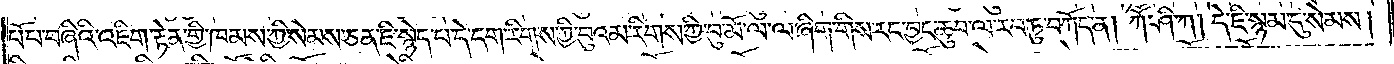པོ་པ་བཞིའི་འཇིག་རྟེན་གྱི་ཁམས་ཀྱི་སེམས་ཅན་ཇི་སྙེད་པ་དེ་དག་རིགས་ཀྱི་བུའམ་རིགས་ཀྱི་བུ་མོ་ལ་ལ་ཞིག་གིས་རང་བྱང་ཆུབ་ལ་རབ་ཏུ་བཀོད་ན། ཀཽ་ཤི་ཀ། དེ་ཇི་སྙམ་དུ་སེམས།
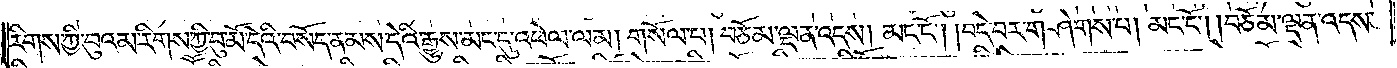རིགས་ཀྱི་བུའམ་རིགས་ཀྱི་བུ་མོ་དེའི་བསོད་ནམས་དེའི་རྒྱུས་མང་དུ་འཕེལ་ལམ། གསོལ་པ། བཅོམ་ལྡན་འདས། མང་ངོ༌། །བདེ་བར་གཤེགས་པ། མང་ངོ༌། །བཅོམ་ལྡན་འདས་
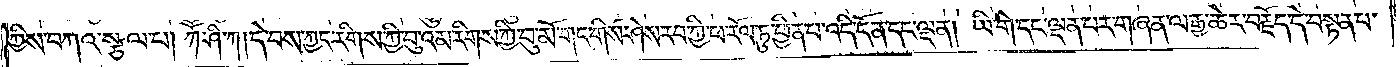ཀྱིས་བཀའ་སྩལ་པ། ཀཽ་ཤི་ཀ། དེ་བས་ཀྱང་རིགས་ཀྱི་བུའམ་རིགས་ཀྱི་བུ་མོ་གང་གིས་ཤེས་རབ་ཀྱི་ཕ་རོལ་ཏུ་ཕྱིན་པ་འདི་དོན་དང་ལྡན། ཡི་གེ་དང་ལྡན་པར་གཞན་ལ་རྒྱ་ཆེར་བརྗོད་དེ་བསྟན་པ་
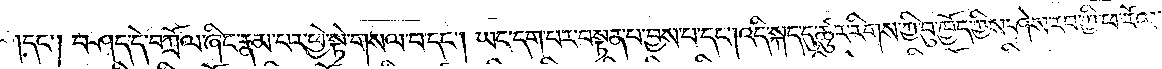དང༌། བཤད་དེ་བཀྲོལ་ཞིང་རྣམ་པར་ཕྱེ་སྟེ་གསལ་བ་དང༌། །ཡང་དག་པར་བསྟན་པ་བྱས་པ་དང༌། འདི་སྐད་དུ་ཚུར་རིགས་ཀྱི་བུ་ཁྱོད་ཀྱིས་ཤེས་རབ་ཀྱི་ཕ་རོལ་
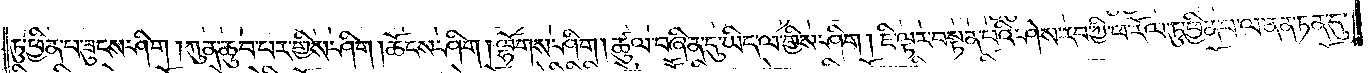ཏུ་ཕྱིན་པ་ཟུངས་ཤིག །ཀུན་ཆུབ་པར་གྱིས་ཤིག །ཆོངས་ཤིག། ལྷོགས་ཤིག །ཚུལ་བཞིན་དུ་ཡིད་ལ་གྱིས་ཤིག །ཇི་ལྟར་བསྟན་པའི་ཤེས་རབ་ཀྱི་ཕ་རོལ་ཏུ་ཕྱིན་པ་ལ་ནན་ཏན་དུ་
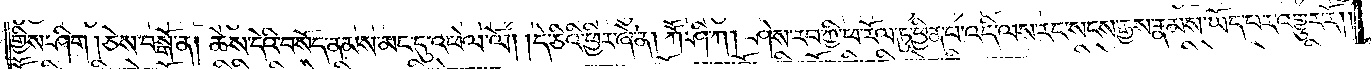གྱིས་ཤིག། ཅེས་བསྒོ་ན། ཆེས་དེའི་བསོད་ནམས་མང་དུ་འཕེལ་ལོ། །དེ་ཅིའི་ཕྱིར་ཞེ་ན། ཀཽ་ཤི་ཀ། ཤེས་རབ་ཀྱི་ཕ་རོལ་ཏུ་ཕྱིན་པ་འདི་ལས་རང་སངས་རྒྱས་རྣམས་ཡོད་པར་འགྱུར་རོ། །
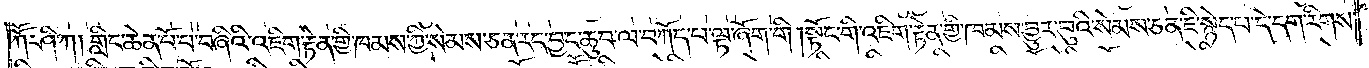ཀཽ་ཤི་ཀ། གླིང་ཆེན་པོ་པ་བཞིའི་འཇིག་རྟེན་གྱི་ཁམས་ཀྱི་སེམས་ཅན་རང་བྱང་ཆུབ་ལ་བཀོད་པ་ལྟ་ཞོག་གི །སྟོང་གི་འཇིག་རྟེན་གྱི་ཁམས་བྱུར་བུའི་སེམས་ཅན་ཇི་སྙེད་པ་དེ་དག་རིགས་
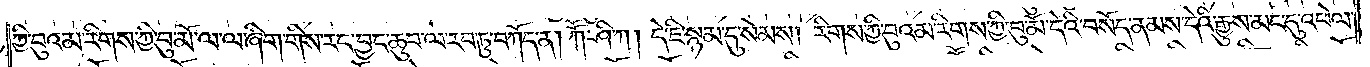ཀྱི་བུའམ་རིགས་ཀྱི་བུ་མོ་ལ་ལ་ཞིག་གིས་རང་བྱང་ཆུབ་ལ་རབ་ཏུ་བཀོད་ན། ཀཽ་ཤི་ཀ། དེ་ཇི་སྙམ་དུ་སེམས། རིགས་ཀྱི་བུའམ་རིགས་ཀྱི་བུ་མོ་དེའི་བསོད་ནམས་དེའི་རྒྱུས་མང་དུ་འཕེལ་
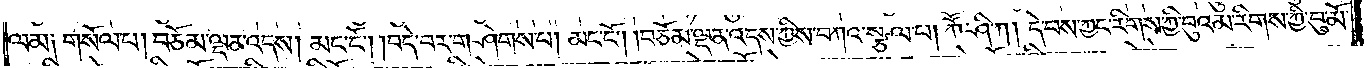ལམ༑ གསོལ་པ། བཅོམ་ལྡན་འདས། མང་ངོ༌། །བདེ་བར་གཤེགས་པ། མང་ངོ༌། །བཅོམ་ལྡན་འདས་ཀྱིས་བཀའ་སྩལ་པ། ཀཽ་ཤི་ཀ། དེ་བས་ཀྱང་རིགས་ཀྱི་བུའམ་རིགས་ཀྱི་བུ་མོ་
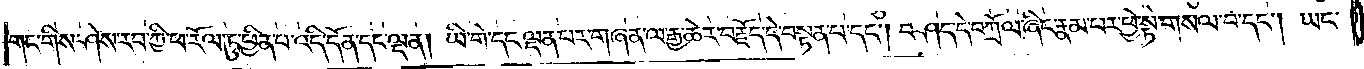གང་གིས་ཤེས་རབ་ཀྱི་ཕ་རོལ་ཏུ་ཕྱིན་པ་འདི་དོན་དང་ལྡན། ཡི་གེ་དང་ལྡན་པར་གཞན་ལ་རྒྱ་ཆེར་བརྗོད་དེ་བསྟན་པ་དང༌། བཤད་དེ་བཀྲོལ་ཞིང་རྣམ་པར་ཕྱེ་སྟེ་གསལ་བ་དང༌། ཡང་
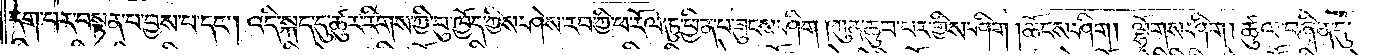དག་པར་བསྟན་པ་བྱས་པ་དང༌། འདི་སྐད་དུ་ཚུར་རིགས་ཀྱི་བུ་ཁྱོད་ཀྱིས་ཤེས་རབ་ཀྱི་ཕ་རོལ་ཏུ་ཕྱིན་པ་ཟུངས་ཤིག །ཀུན་ཆུབ་པར་གྱིས་ཤིག །ཆོངས་ཤིག། ལྷོགས་ཤིག །ཚུལ་བཞིན་དུ་
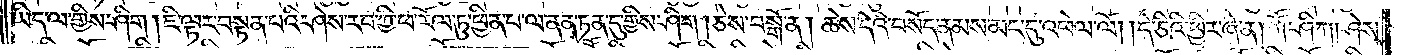ཡིད་ལ་གྱིས་ཤིག །ཇི་ལྟར་བསྟན་པའི་ཤེས་རབ་ཀྱི་ཕ་རོལ་ཏུ་ཕྱིན་པ་ལ་ནན་ཏན་དུ་གྱིས་ཤིག །ཅེས་བསྒོ་ན། ཆེས་དེའི་བསོད་ནམས་མང་དུ་འཕེལ་ལོ། །དེ་ཅིའི་ཕྱིར་ཞེ་ན། ཀཽ་ཤི་ཀ། ཤེས་
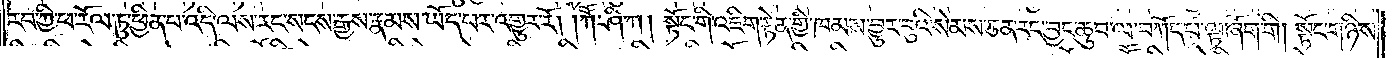རབ་ཀྱི་ཕ་རོལ་ཏུ་ཕྱིན་པ་འདི་ལས་རང་སངས་རྒྱས་རྣམས་ཡོད་པར་འགྱུར་རོ། །ཀཽ་ཤི་ཀ། སྟོང་གི་འཇིག་རྟེན་གྱི་ཁམས་བྱུར་བུའི་སེམས་ཅན་རང་བྱང་ཆུབ་ལ་བཀོད་པ་ལྟ་ཞོག་གི །སྟོང་གཉིས་
